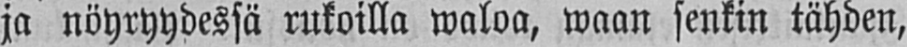ja nöyryydessä rukoilla waloa, waan senkin tähden,
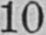10
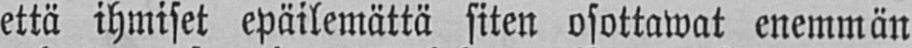että ihmiset epäilemättä siten osottawat enemmän
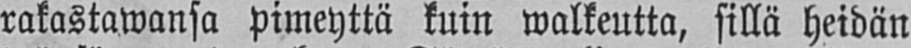rakastawansa pimeyttä kuin walkeutta, sillä heidän
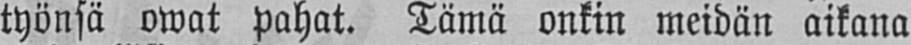työnsä owat pahat. Tämä onkin meidän aikana
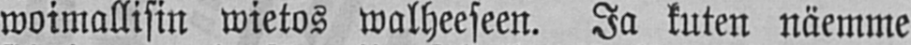woimallisin wietos walheeseen. Ja kuten näemme
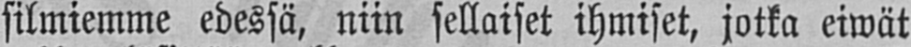silmiemme edessä, niin sellaiset ihmiset, jotka eiwät
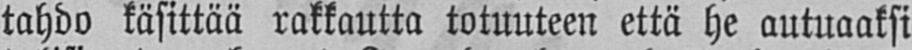tahdo käsittää rakkautta totuuteen että he autuaaksi
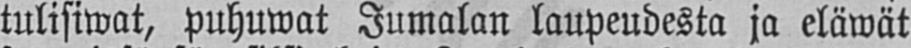tulisiwat, puhuwat Jumalan laupeudesta ja eläwät
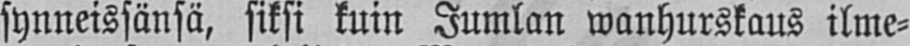synneissänsä, siksi kuin Jumlan wanhurskaus ilme-
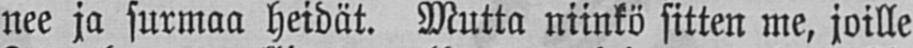nee ja surmaa heidät. Mutta niinkö sitten me, joille
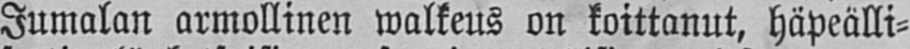Jumalan armollinen walkeus on koittanut, häpeälli-
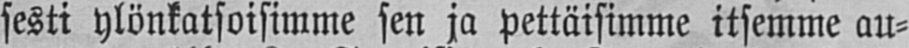sesti ylönkatsoisimme sen ja pettäisimme itsemme au-
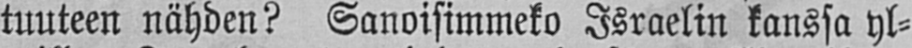tuuteen nähden? Sanoisimmeko Israelin kanssa yl-
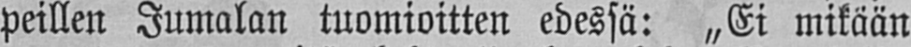peillen Jumalan tuomioitten edessä: „Ei mikään
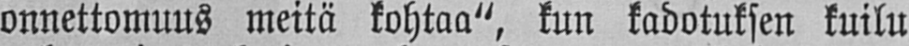onnettomuus meitä kohtaa", kun kadotuksen kuilu
